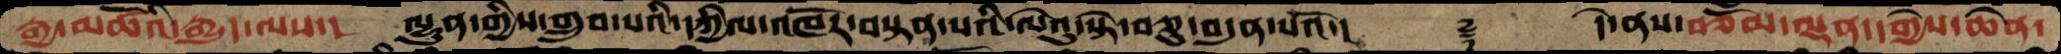རྒྱ་མཚོའི་རྒྱུད་ལས་།  ལྷུན་གྱིས་གྲུབ་པའི་དཀྱིལ་འཁོར་བསྟན་པའི་ལེའུ་སྟེ་བཅུ་བདུན་པའོ་།    ࿑    དེ་ནས་བཅོམ་ལྡན་དགྱེས་ཆེན་
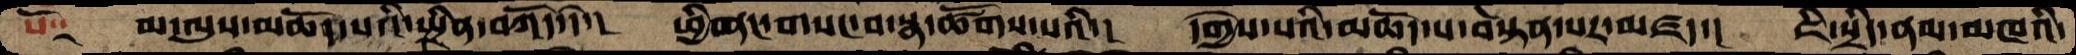སོ༑   མ་ལུས་མཆོད་པའི་སྤྲིན་བཀོད་དེ་།  ཕྱི་ནང་གསང་བ་སྣ་ཚོགས་པའི་།  དགྱེས་པའི་མཆོད་པ་བསྟན་པར་མཛད་།  ཇི་སྲིད་ནམ་མཁའི་
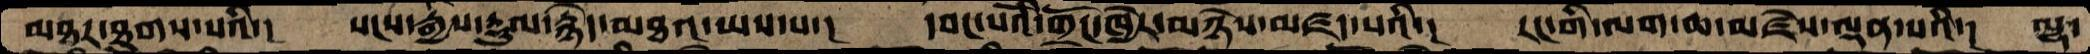མཐར་ཐུགས་པའི་།  སངས་རྒྱས་རྡུལ་རྙེད་མཐའ་ཡས་པ་།  དབང་པོའི་གྲོང་ཁྱེར་མཉེས་མཛད་པའི་།  རང་གི་ལག་ཆ་མཛེས་ལྡན་པའི་།  ལྷ་
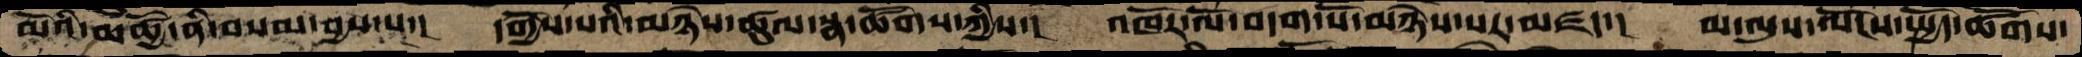མོའི་མཚྱོ་ནི་ནི་བསམ་བྱས་པ་།  དགྱེས་པའི་མཉེས་ཚུལ་སྣ་ཚོགས་ཀྱིས་།  འཁོར་ལོ་བདག་པོ་མཉེས་པར་མཛད་།  མ་ལུས་ལོངས་སྤྱོད་ཚོགས་
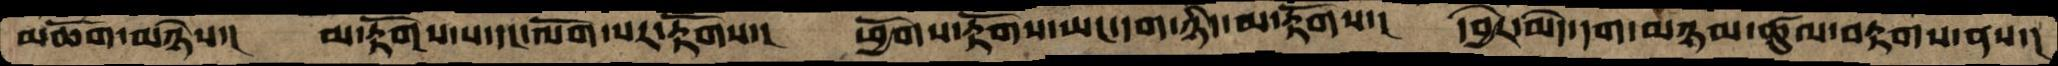མཆོག་མཉེས་།  མ་རྟོགས་པ་དང་ལོག་པར་རྟོགས་།  ཕྱོགས་རྟོགས་ཡང་དག་ཉིད་མ་རྟོགས་།  དབྱེར་མེད་དག་མཉམ་ཚུལ་བརྟག་ནས་།
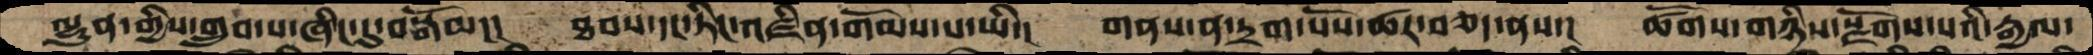ལྷུན་གྱིས་གྲུབ་པ་ཞིང་དུ་བསྒོམ་།  ཐབས་དང་ཏིང་འཛིན་གོམས་པ་ཡི་།  གནས་ན་དྲག་པོས་ཚར་བཅད་ནས་།  ཚོགས་གཉིས་སྫོགས་པའི་རྒྱལ་
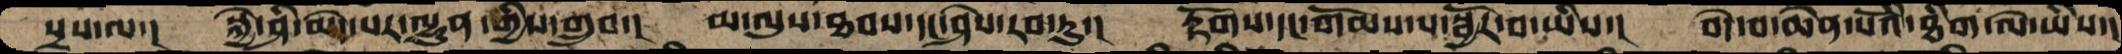སྲས་ལ་།  སྐྱེ་ཤི་མེད་པར་ལྷུན་གྱིས་གྲུབ་།  མ་ལུས་ཐབས་དང་ཤེས་རབ་ཏུ་།  རྟོགས་དང་གོམས་པ་སྦྱོར་བ་ཡིས་།  བདེ་བ་ཆེན་པོའི་ཐིག་ལེ་ཡིས་།
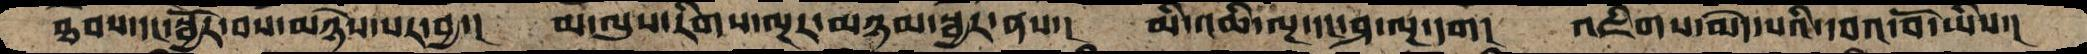ཐབས་དང་སྦྱོར་བས་མཉེས་པར་བྱ་།  མ་ལུས་རིགས་ལྔར་མཉམ་སྦྱར་ནས་།  མི་འཆི་ལྔ་དང་ཤ་ལྔ་དུག། འཇིགས་མེད་པའི་དཔའ་བོ་ཡིས་།
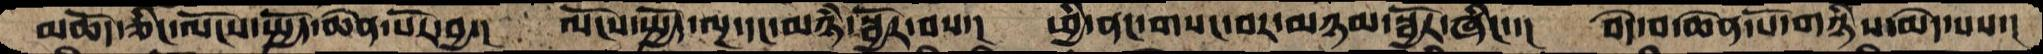མཆོད་ཅིང་ལོངས་སྤྱོད་ཆེན་པོར་བྱ་།  ལོངས་སྤྱོད་ལྔ་དང་མཉཾ་སྦྱོར་བས་།  ཕྱི་ནང་གསང་བར་མཉམ་སྦྱོར་ཞིང་་།  བདེ་བ་ཆེན་པོ་གཉིས་མེད་པས་།
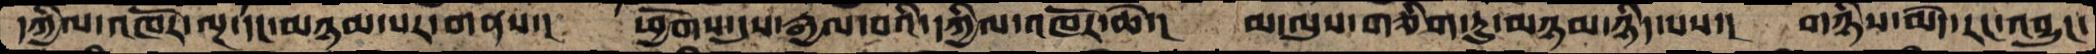དཀྱིལ་འཁོར་ལྔ་དང་མཉམ་པར་གནས་།  ཕྱོགས་དུས་རྒྱལ་བའི་དཀྱིལ་འཁོར་ཆེ་།  མ་ལུས་གཅིག་ཏུ་མཉམ་ཉིད་པས་།  གཉིས་མེད་རང་འབྱུང་
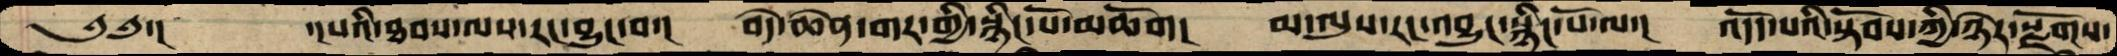༄༅་།     ་།པའི་ཐབས་ལས་རང་བྱུང་བ་།   བདེ་ཆེན་གར་གྱི་སྙིང་པོ་མཆོག།  མ་ལུས་རང་འབྱུང་སྙིང་པོ་ལ་།  འདོད་པའི་སྟོབས་ཀྱི་ཉེར་སྫོགས་
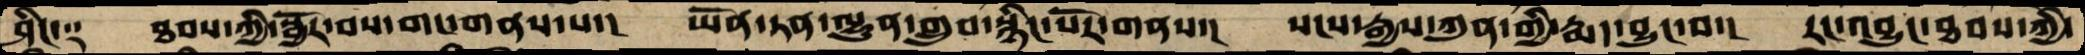ཤིང༑   ཐབས་ཀྱི་སྦྱོར་བས་གང་གནས་པ་།  ཡོན་ཏན་ལྷུན་གྲུབ་སྙིང་པོར་གནས་།  སངས་རྒྱས་ཀུན་གྱི་རྨད་བྱུང་བ་།  རང་འབྱུང་ཐབས་ཀྱི་
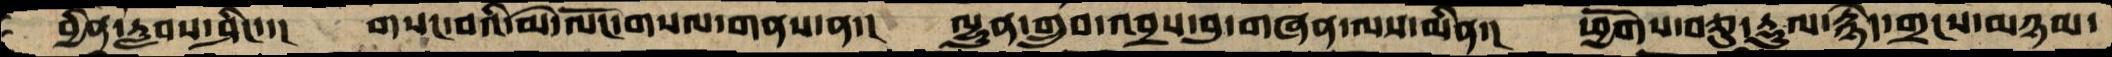བྱིན་རླབས་ཤིང་་།   གསང་བའི་མེ་ལོང་གསལ་གནས་ན་།   ལྷུན་གྲུབ་འབྲས་བུ་གཞན་ལས་མིན་།   ཕྱོགས་བཅུ་རྡུལ་རྙེད་གྲངས་མཉམ་
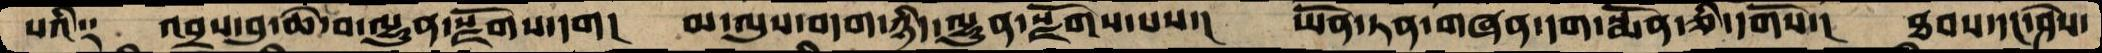པའི༑   འབྲས་བུ་ཆེ་བ་ལྷུན་སྫོགས་དག།   མ་ལུས་བདག་ཉིད་ལྷུན་སྫོགས་པས་།   ཡོན་ཏན་གཞན་དག་སྨོན་ཅི་དགོས་།   ཐབས་དང་ཤེས་
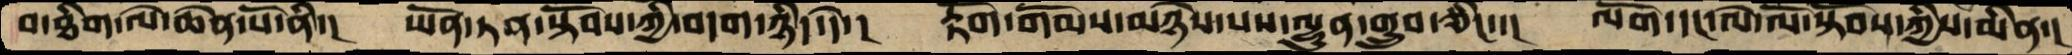བ་ཐིག་ལེ་ཆེན་པོ་ནི་།   ཡོན་ཏན་སྟོབས་ཀྱི་བདག་ཉིད་དེ་།    རྟོག་གོམས་མཉེས་པས་ལྷུན་གྲུབ་ཅིང་་།   ལོག་དང་ལེ་ལོ་སྟོབས་ཀྱིས་མིན་།
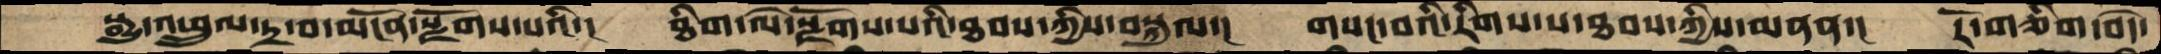སྒྱུ་འཕྲུལ་དྲ་བ་མངོན་སྫོགས་པའི་།   ཐིག་ལེ་སྫོགས་པའི་ཐབས་ཀྱིས་བསྐུལ་།   གསང་བའི་རིགས་ས་ཐབས་ཀྱིས་མནན་།   རོ་གཅིག་བདེ་
